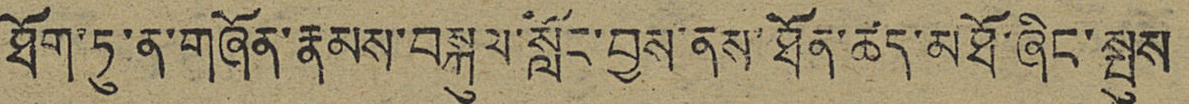ཐོག་ཏུ་ན་གཞོན་རྣམས་བསྐུལ་སློང་བྱས་ནས་ཐོན་ཚད་མཐོ་ཞིང་སྤུས
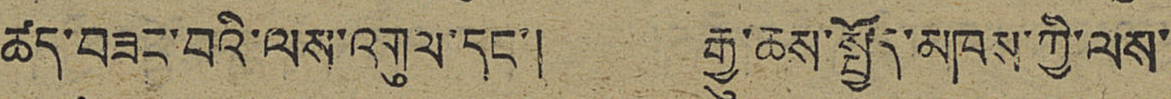ཚད་བཟང་བའི་ལས་འགུལ་དང་། རྒྱུ་ཆས་སྤྱོད་མཁས་ཀྱི་ལས་
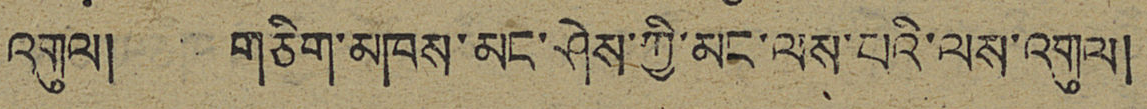འགུལ། གཅིག་མཁས་མང་ཤེས་ཀྱི་མང་ལས་པའི་ལས་འགུལ།
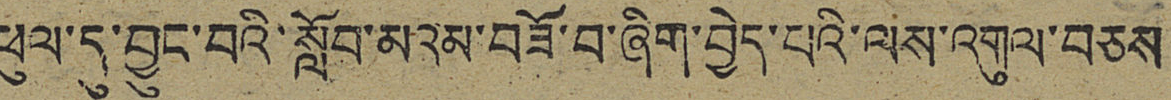ཕུལ་དུ་བྱུང་བའི་སློབ་མའམ་བཟོ་བ་ཞིག་བྱེད་པའི་ལས་འགུལ་བཅས
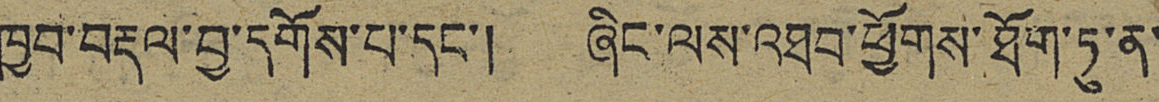ཁྱབ་བརྡལ་བྱ་དགོས་པ་དང་། ཞིང་ལས་འཐབ་ཕྱོགས་ཐོག་ཏུ་ན་
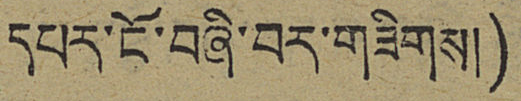(དཔར་ངོ་བཞི་བར་གཟིགས།)
